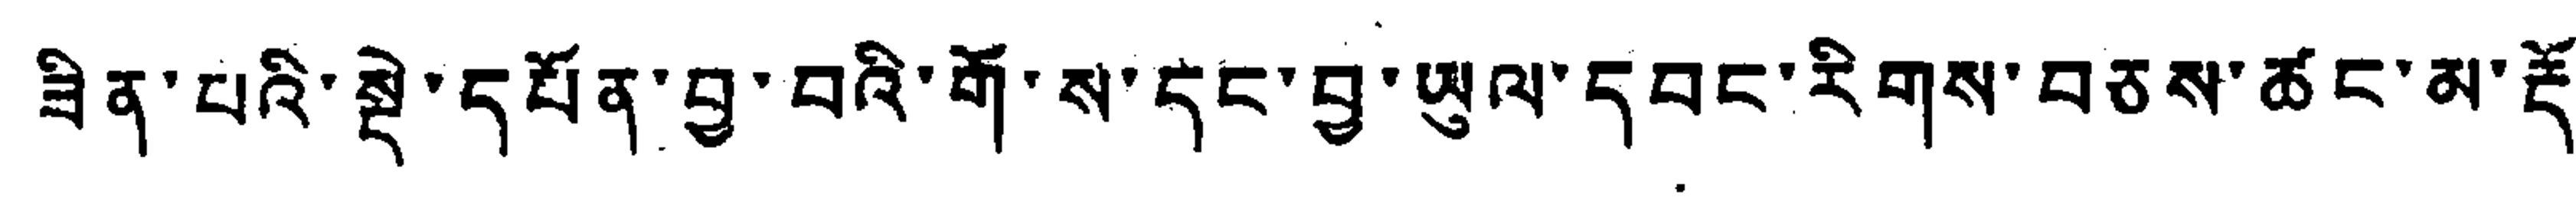ཟིན་པའི་སྡེ་དཔོན་བྱ་བའི་གོ་ས་དང་བྱ་ཡུལ་དབང་རིགས་བཅས་ཚང་མ་རྡོ་
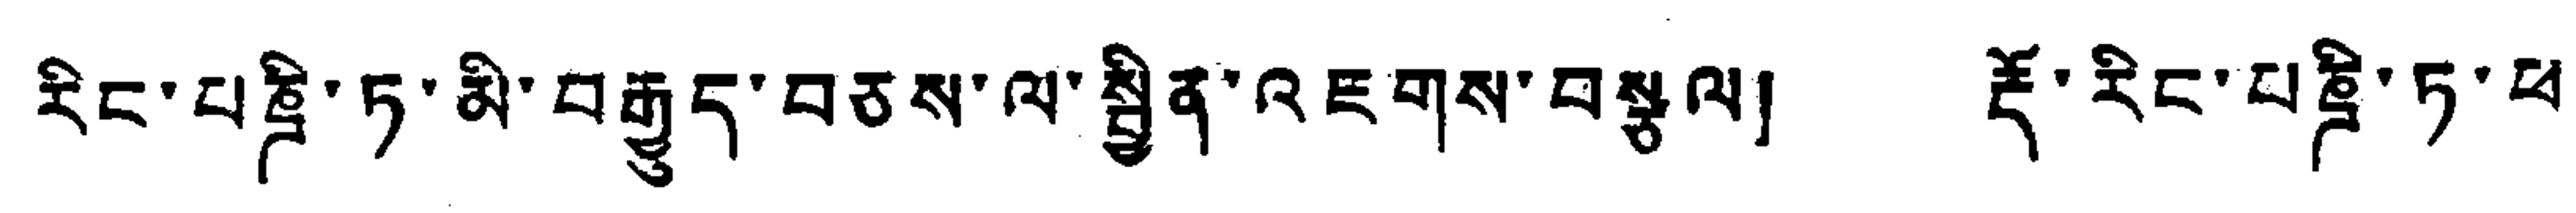རིང་པཎྜི་ཏ་མི་བརྒྱུད་བཅས་ལ་སྦྱིན་འཇགས་བསྩལ། རྡོ་རིང་པཎྜི་ཏ་ཕ་
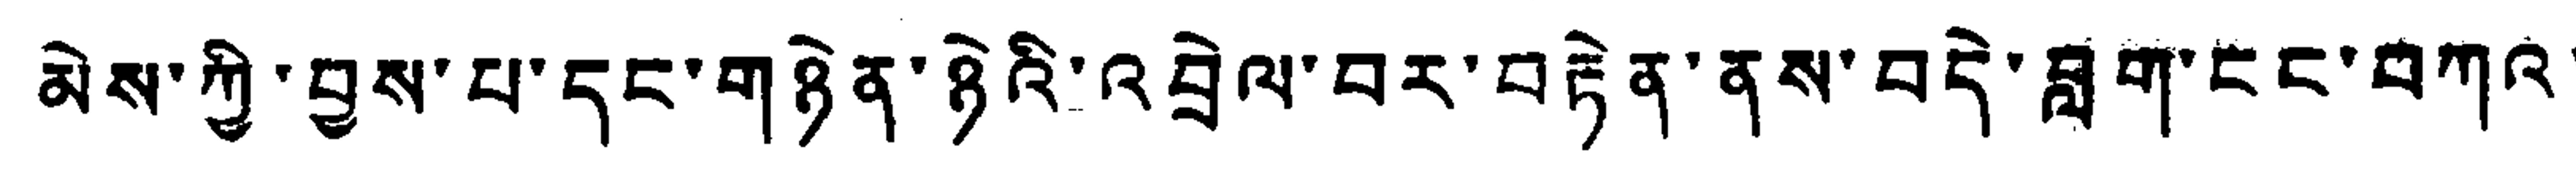མེས་ཀྱི་བྱས་པ་དང་གཉེན་ཉེའི་འབྲེལ་བར་བརྟེན་ནས་བདེ་བླག་ངང་བཀའ་
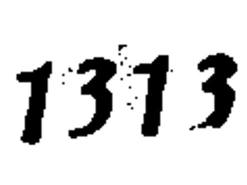1313
